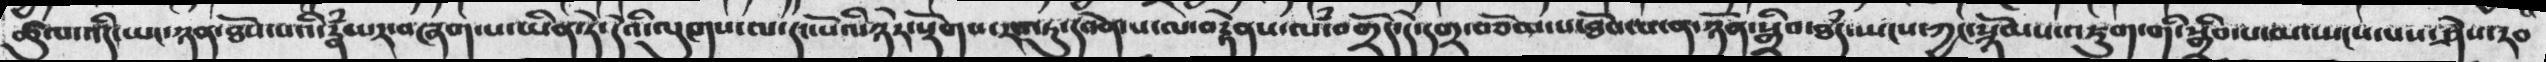ཚུལ་འདི་ཡང་ཉན་ཐོས་པའི་རྣཾ་པར་བཞག་པ་ཡིན་ཏེ་དེའི་ལུགས་ལ་དང་པོའི་ཉེར་སྡོགས་རབ་ཏུ་དབེན་པ་ལ་བརྟེནས་ལཾ་བགྲོད་དེ་དགྲ་བཅོམ་པ་ཐོབ་པ་ན་ཉོན་སྒྲིབ་ཐཾད་སྤངས་ཀྱང་སྙོམས་འཇུག་གི་སྒྲིབ་པ་མ་སྤངས་པས་ཤེས་རབ
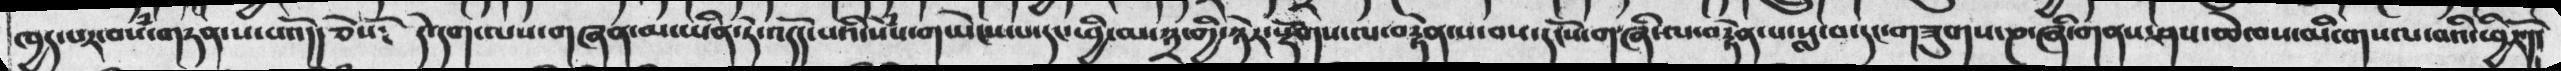ཁྱད་པར་བསཾ་གཏན་ས་པའོ།། ཅེསོ༴  དེ་དག་ལས་གཞན་མ་ཡིན་ཏེ་འདོད་པའི་སེཾས་གཡེངས་པ་དང་ཕྱི་མ་༣་གྱི་ཉེར་སྡོགས་ལ་བརྟེན་ས་བས་དངོས་གཞི་ལ་བརྟེན་པ་སླ་བ་དང་གཟུགས་ཎ་ཞི་གནས་ཤས་ཆེ་བས་མི་གསལ་བའི་ཕྱིརོ་།།
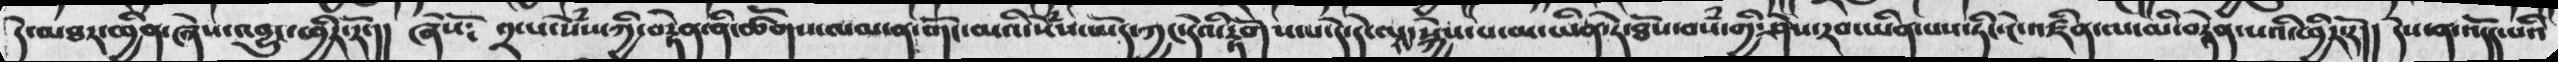དེ་མཐར་ཕྱིན་ཞེས་འབྱུང་ཕྱིར་རོ་།།  ཞེསོ༴   ༢་པ་སེཾས་ཀྱི་བརྟེན་ནི་ཚོགས་ལམ་ན་གོང་མའི་སེཾས་ཡོད་ཀྱང་དེའི་རྟོགས་པ་དེ་དེ་ལས་སྐྱེས་པ་མ་ཡིན་ཏེ་ཐོས་བསཾ་གྱི་ཤེས་རབ་ཡིན་པས་ཏིང་འཛིན་ལ་མི་བརྟེན་པའི་ཕྱིར་རོ།།   དེས་ན་འདོད་པའི་
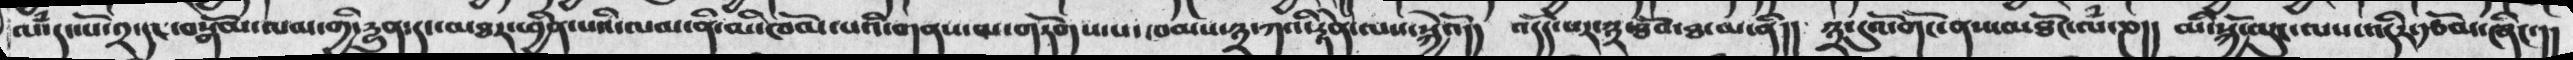ལཾ་དང་པོ་༢་དང་བསྒོམ་ལམ་གྱི་རྱུན་དང་མཐར་ཕྱིན་པའི་ལམ་ནི་མི་ཁོམ་པའི་གནས་མ་གཏོགས་པ་ཁམས་༣་ཀའི་རྟེན་ལས་སྐྱེའོ།། འདོད་པར་༣་ཐོབ་ཐ་མ་ནི།།  ༣་དུའོ་གོང་ནས་མཐོང་ལྃ་ཎ།།  མི་སྐྱོ་ལུང་ལས་འདིར་རྩོམ་ཞིང་།།
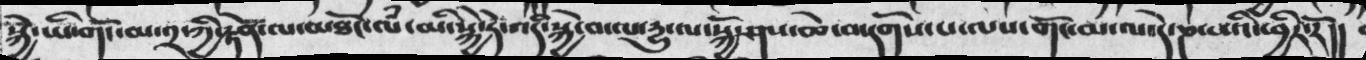སྐྱེ་ཡི་གོང་མ་༢་ཀྱི་རྟེན་ལ་མཐོང་ལཾ་མི་སྐྱེ་ཏེ་འདི་སྐྱེ་བ་ལ་རྱུ་ལ་སྐྱོ་ཤས་ཆེ་བ་དགོས་པ་ལས་གོང་མ་ལ་དེ་ཎ་པའི་ཕྱིར་རོ།།
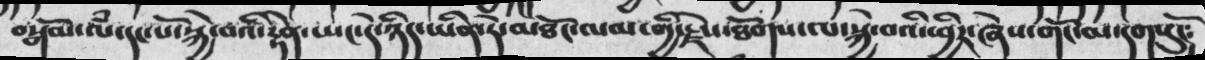བསྒོམ་ལཾ་དང་པོ་སྐྱེ་བའི་རྟེན་ཡང་དེ་ཉིད་ཡིན་ཏེ་མཐོང་ལམ་གྱི་རྗེས་ཐོགས་ལ་སྐྱེ་བའི་ཕྱིར་ཞེས་གོང་མ་དགསུངོ༴
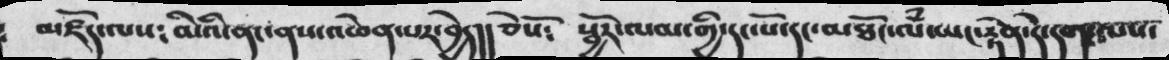མཛདོ་ལས༴   མིའི་ནང་ནས་འཕེན་པར་བྱེད།།   ཅེསོ༴   སྦྱོར་ལམ་གྱི་དང་པོ་དང་མཐོང་ལཾ་ཡང་རྟེན་དེ་དག་ལས་
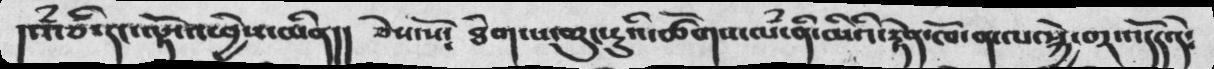།འཾ་ཅི་དང་ལྟོ་འཕྱེས་མིན།།   ཅེས་སོ༴   ཐེག་པ་ཆུང་ངུའི་ཚོགས་ལཾ་ནི་མིའི་རྟེན་ཁོ་ན་ལ་སྐྱེ་བར་འདོད་དེ༴
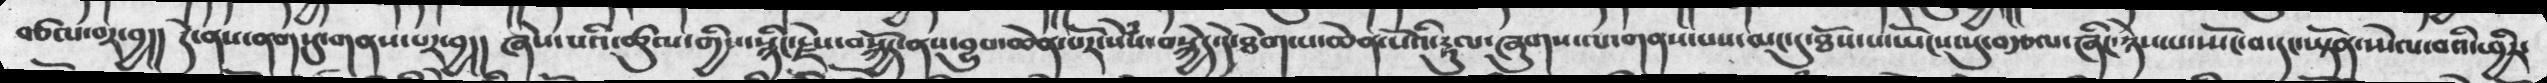་བཙལ་བར་བྱ།།  དེ་ནས་ནག་དུ་གནས་པར་བྱ།།  ཞེས་པའི་ཚུལ་གྱིས་སྙིང་རྗེས་བསྐྱོད་ནས་བྱུབ་ཆེན་པོར་སེཾས་བསྐྱེད་དེ་ཐེག་པ་ཆེན་པོའི་རྟུལ་ཞུགས་ལ་གནས་པས་མང་དུ་ཐོས་པ་ཡོངས་སུ་བརྩལ་ཞིང་ཉེས་པ་སྤོང་བ་དང་ཡྟོན་སྤེལ་བའི་ཕྱིར་
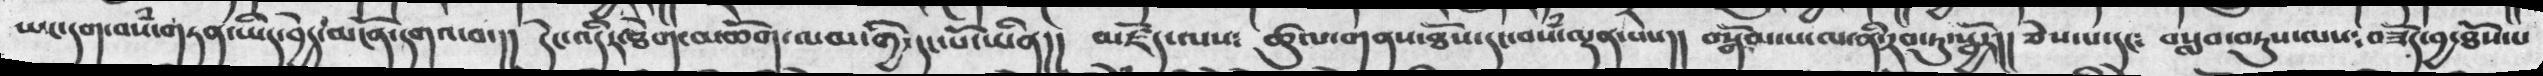ཡང་དག་བསཾ་གཏན་ཡིད་བྱེད་མངོན་དགའ་བ་།།   དེང་འདིར་ཐེག་མཆོག་ལམ་གྱི་དང་པོ་ཡིན།།    མཛོད་ལས༴  ཚུལ་གནས་ཐོས་དང་བསཾ་ལྡན་པས།།  བསྒོམ་པ་ལ་ནི་རབ་ཏུ་སྦྱོར།།  ཅེས་པ་དང༴  བསླབ་བཏུས་ལས༴བཟོད་བྱ་ཐོས་པ
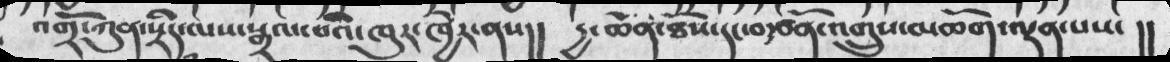འགྲོ་ཀུན་སྲིད་ལས་སྒྲལ་པའི་ཁུར་ཁྱེར་ནས།།   དྱ་ ཆེན་ཐོས་དང་བརྩོན་འགྲུས་མཆོག་ལྡན་པས་ །།
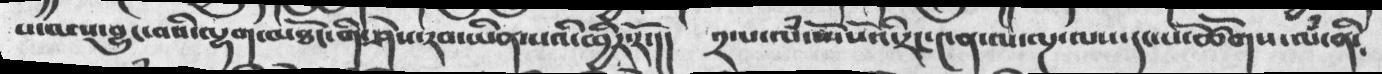པ་ལས་བྱུང་བའི་ལྷག་མཐོང་གི་ཤེས་རབ་ཡིན་པའི་ཕྱིར་རོ་།། ༢་པ་ལཾ་སོ་སོའི་རང་༤ན་ལ་ལྔ་ལས་དང་པོ་ཚོགས་ལཾ་ནི༴
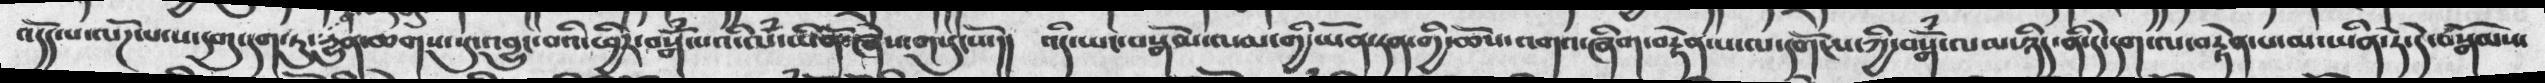འདོད་པ་ལོཌ་པ་ས་དགུ་དག་ཏུ་ན་དྱུན་ཆགས་སུ་འབྱུང་བའི་ཕྱིར་བསྒོཾ་པའི་ལཾ་ཡིནོ་ཞེས་གསུངསོ་།།  འདི་ཡང་བསྒོམ་ལམ་གྱི་ཡོན་ཏན་གྱི་ཆོས་འགའ་ཞིག་བརྟེན་པ་ལ་དགོངས་གྱི་བསྒོཾ་ལམ་ཉིད་ནི་དེ་དག་ལ་བརྟེན་པ་མ་ཡིན་ཏེ་དེ་བསྒོམས་
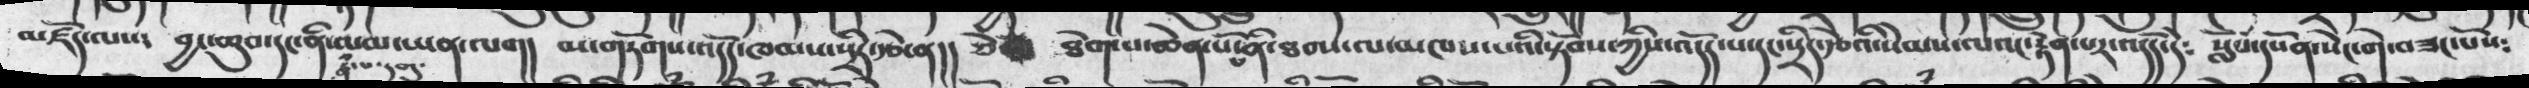མཛོད་ལས༴  བྱང་ཆུབ་དང་ནི་ལམ་ཡན་ལག།  མ་གཏོགས་འདོད་ཁམས་སྲིད་རྩེ་ན།།   ཅེསོ་  ཐེག་པ་ཆེན་པོས་ནི་ཐབས་ལ་མཁས་པའི་སྟོབས་ཀྱིས་འདོད་པ་དང་སྲིད་རྩེའི་སེམས་ལའང་རྟེན་པར་འདོད་དེ༴   སློབ་དཔོན་སེང་གེ་བཟང་པོས༴
